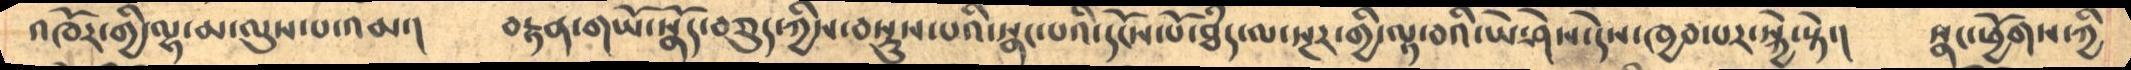འཁོར་གྱི་ལྷ་མ་ལུས་པ་འམ་།     བརྟན་གཡོ་སྣོད་བཅུད་ཀྱིས་བསྡུས་པའི་སྣང་པའི་དངོས་པོ་ཐཾད་ལ་སྔར་གྱི་ལྟ་བའི་ཡེ་ཤེས་དེས་ཁྱབ་པར་སྐྱེ་སྟེ་།       སྣང་ཕྱོགས་ཀྱི
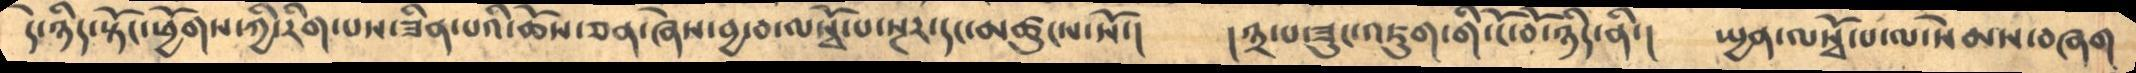དེ་ཉིད་སྟོང་ཕྱོགས་ཀྱི་རིག་པས་ཟིན་པའི་ཆོས་ཅན་ཞེས་བྱ་བ་ལསྭོ་པ་སྔར་དང་མཚུངས་སོ་།         །༣་པ་ཟུང་འཇུག་གི་ངོ་བོ་ཉིད་ནི་།     སྤྱན་ལསྭོ་པ་ལ་སེམས་བཞག
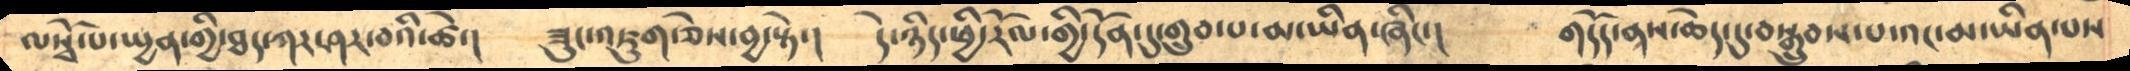ལསྭོ་པ་སྤྱན་གྱི་ཐད་ཀར་ཤར་བའི་ཚེ་།      ཟུང་འཇུག་ཅེས་བྱ་སྟེ་།      དེ་ཉིད་ཕྱི་རོལ་གྱི་དོན་དུ་གྲུབ་པ་མ་ཡིན་ཞིང་།     གདོད་ནས་ཆེད་དུ་བསྒྲུབས་པ་འང་མ་ཡིན་པས
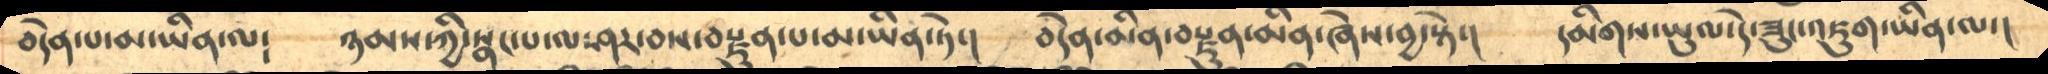བདེན་པ་མ་ཡིན་ལ༴        ཉམས་ཀྱི་སྣང་པ་ལ་ཤར་བས་བརྫུན་པ་མ་ཡིན་ཏེ་།     བདེན་མིན་བརྫུན་མིན་ཞེས་བྱ་སྟེ་།     དམིགས་ཡུལ་དེ་ཟུང་འཇུག་ཡིན་ལ་།
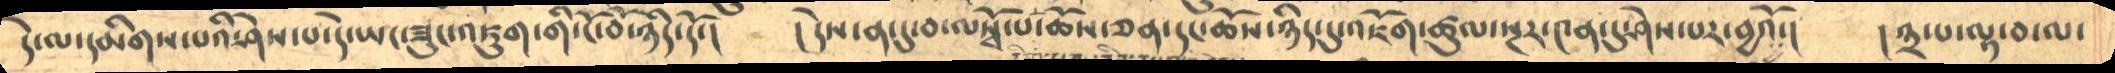དེ་ལ་དམིགས་པའི་ཤེས་པ་དེ་ཡང་ཟུང་འཇུག་གི་ངོ་བོ་ཉིད་དོ་།      །དེས་ན་དུ་བ་ལསྭོ་པ་ཆོས་ཅན་དང་ཆོས་ཉིད་དུ་འཇོག་ཚུལ་སྔར་༤ན་དུ་ཤེས་པར་བྱའོ་།      །༣་པ་ལྟ་བ་ལ་
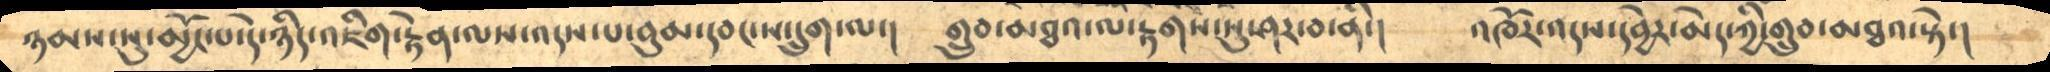ཉམས་སུ་མྱོང་པ་དེ་ཉིད་འཇིག་རྟེན་ལས་འདས་པ་བུམ་དབང་ས་དྲུག་ལ་།       གྲུབ་མཐའ་ལ་རྟགས་སུ་ཤར་བ་ནི་།     འཁོར་འདས་དབྱེར་མེད་ཀྱི་གྲུབ་མཐའ་སྟེ་།
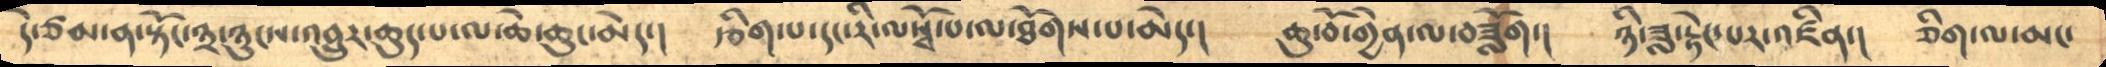དེ་ཙམ་ན་སྟོང་༣་ཉུངས་འབྲུར་ཆུད་པ་ལ་ཆེ་ཆུང་མེད་།       རྩིག་པ་དང་རི་ལསྭོ་པ་ལ་ཐོགས་པ་མེད་།     ཆུ་བོ་གྱེན་ལ་བཟློག་།     ཉི་ཟླ་རྟེང་པར་འཛིན་།     ཅིག་ལ་མང་
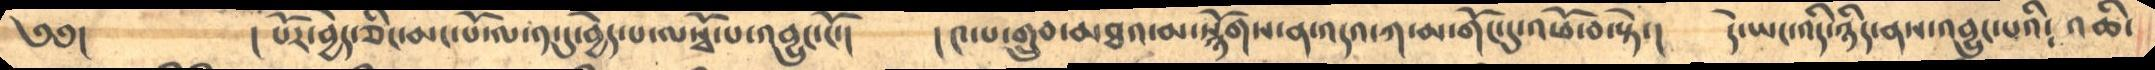༄༅།       །པོར་བྱེད་ཅིང་མང་པོ་ལ་༡་དུ་བྱེད་པ་ལསྭོ་པ་འབྱུང་ངོ་།        །༤་པ་གྲུབ་མཐའ་མ་སྙོགས་ན་འདའ་ཀ་མ་གོང་དུ་འཕོ་བ་སྟེ་།    དེ་ཡང་འདི་ཉིད་ནས་འབྱུང་པའི༴ འཆི་
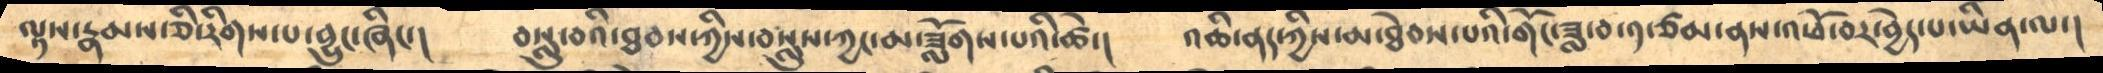ལྟས་རྣམས་ཅི་རིགས་པ་བྱུང་ཞིང་།       བསླུ་བའི་ཐབས་ཀྱིས་བསླུས་ཀྱང་མ་ཟློགས་པའི་ཚེ་།      འཆི་ནད་ཀྱིས་མ་ཐེབས་པའི་གོང་ཟླ་བ་༡་ཙམ་ནས་འཕོ་བར་བྱེད་པ་ཡིན་ལ་།
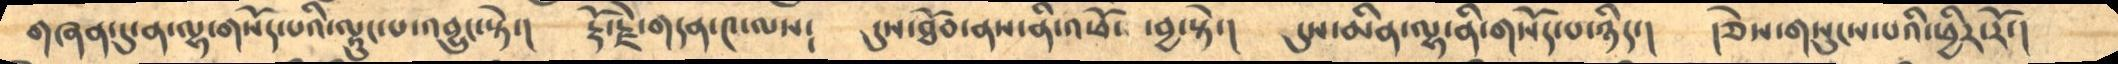གཞན་དུ་ན་ལྷ་གསོད་པའི་ལྟུང་པ་འབྱུང་སྟེ་།      རྡོ་རྗེ་གདན་༤་ལས༴    དུས་ཐོབ་ནས་ནི་འཕོ  ་བྱ་སྟེ་།     དུས་མིན་ལྷ་ནི་གསོད་པ་ཉིད་།    །ཅེས་གསུངས་པའི་ཕྱིར་རོ་།
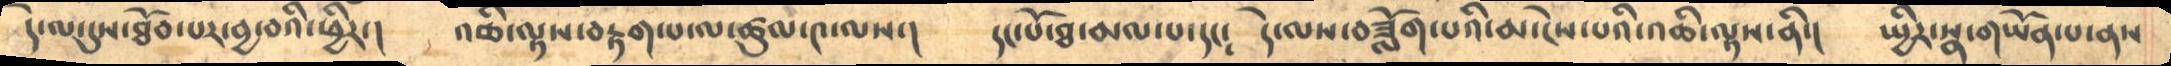དེ་ལ་དུས་ཐོབ་པར་བྱ་བའི་ཕྱིར་།      འཆི་ལྟས་བརྟག་པ་ལ་ཚུལ་༤་ལས་།     དང་པོ་ཐ་མལ་པ་དང༴   དེ་ལས་བཟློག་པའི་མ་ངེས་པའི་འཆི་ལྟས་ནི་།     སྤྱིར་སྣ་གཡོན་པ་ནས
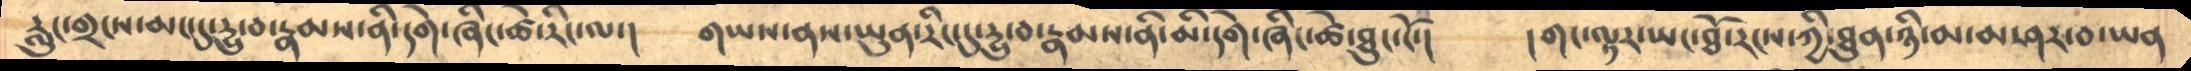རླུང་གྲངས་མང་དུ་དྱུ་བ་རྣམས་ནི་དགེ་ཞིང་ཚེ་རིང་ལ་།     གཡས་ནས་ཡུན་རིང་དུ་དྱུ་བ་རྣམས་ནི་མི་དགེ་ཞིང་ཚེ་ཐུང་ངོ་།     །གང་ལྟར་ཡང་ཐོ་རངས་ཀྱི་ཐུན་ཉི་མ་མ་ཤར་བ་ཡན
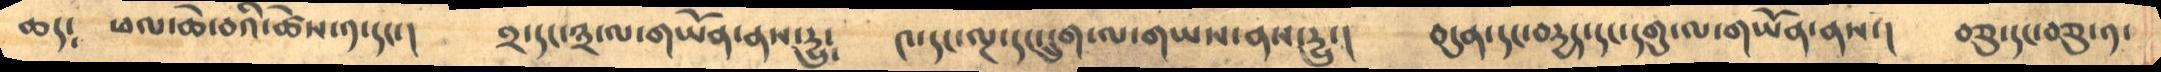ཆད༴  ཕལ་ཆེ་བའི་ཚེས་༡་དང་།      ༢་དང་༣་ལ་གཡོན་ནས་དྱུ༴     ༤་དང་ལྔ་དང་དྲུག་ལ་གཡས་ནས་དྱུ་།      བདུན་དང་བདྱད་དང་དགུ་ལ་གཡོན་ནས་།   བཅུ་དང་བཅུ་༡་
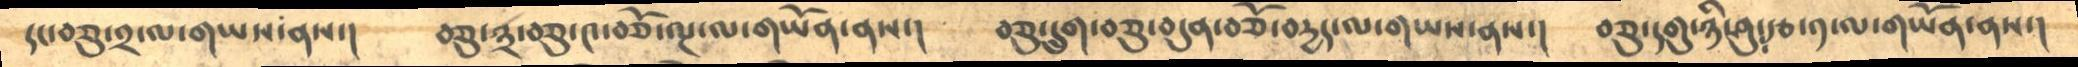དང་བཅུ་༢་ལ་གཡས་ནས་།      བཅུ་༣་བཅུ་༤་བཅོ་ལྔ་ལ་གཡོན་ནས་།      བཅུ་དྲུག་བཅུ་བདུན་བཅོ་བདྱད་ལ་གཡས་ནས་།     བཅུ་དགུ་ཉི་ཤུ་རྩ་༡་ལ་གཡོན་ནས་།
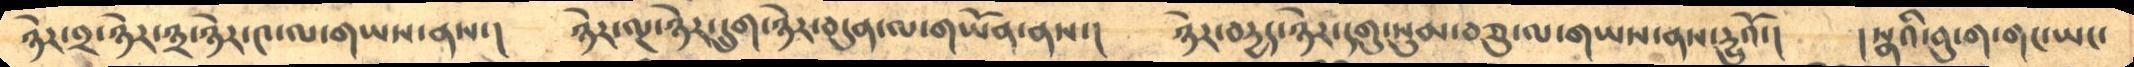ཉེར་༢་ཉེར་༣་ཉེར་༤་ལ་གཡས་ནས་།     ཉེར་ལྔ་ཉེར་དྲུག་ཉེར་བདུན་ལ་གཡོན་ནས་།     ཉེར་བདྱད་ཉེར་དགུ་སུམ་བཅུ་ལ་གཡས་ནས་དྱུའོ་།    །སྣའི་བུ་ག་གང་ཡང་
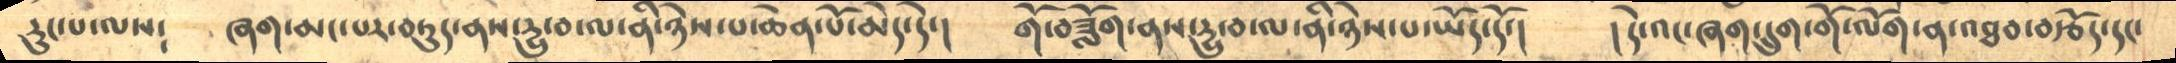རུང་པ་ལས༴      ཞག་མང་པར་བཏུད་ནས་དྱུ་བ་ལ་ནི་ཉེས་པ་ཆེན་པོ་མེད་དེ་།     གོ་བཟློག་ནས་དྱུ་བ་ལ་ནི་ཉེས་པ་ཡོད་དོ་།       །དེ་འང་ཞག་དྲུག་གོ་ལོག་ན་འཐབ་བརྩོད་དང་
